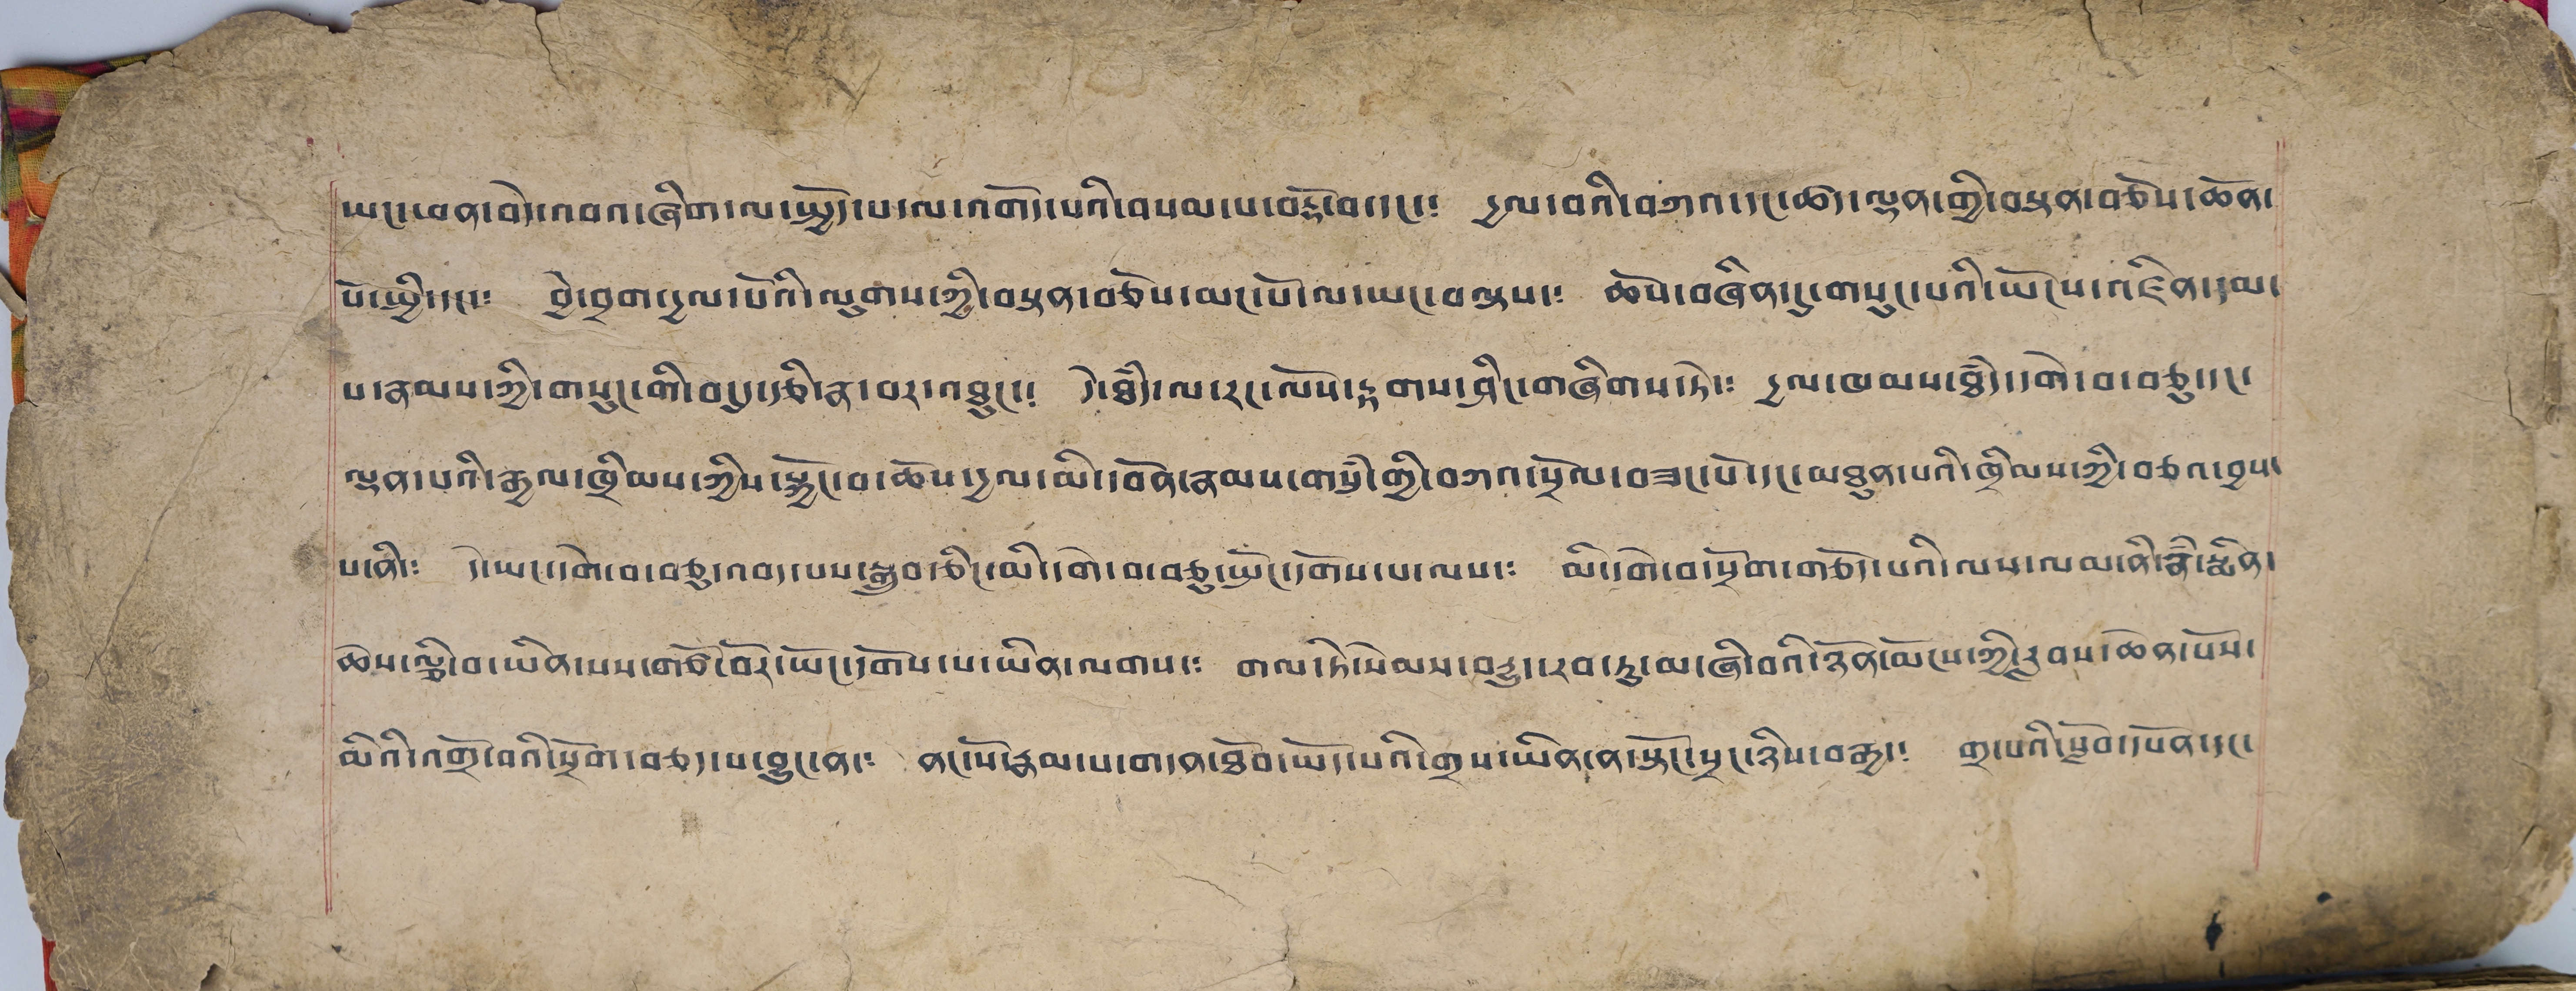ཡང་ཕན་བདེ་འབའ་ཞིག་ལ་སྤྱོད་པ་ལ་འགོད་པའི་བསམ་པ་བརྡོ་བ་དང་༴ དྱལ་བའི་བཀའ་དང་ཚད་ལྡན་གྱི་བསྟན་བཅོས་ཆེན་
པོ་སྤྱི་དང་༴ བྱེ་བྲག་དྱལ་པོའི་ལུགས་ཀྱི་བསྟན་བཅོས་མང་པོ་ལ་ཡང་བལྟས་༴ ཆོས་བཞིན་དུ་གསུང་པའི་ཡོངས་འཛིན་དམ་
པ་རྣམས་ཀྱི་གསུང་གི་བདུད་རྩི་རྣ་བར་འཐུང་༴ དེ་ཐཾད་ལ་རང་ལོས་རྟགས་ཤིང་གཞིགས་ཏེ་༴ དྱལ་ཁམས་ཐཾད་དགེ་བ་བཅུ་དང་
ལྡན་པའི་རྒྱལ་ཁྲིམས་ཀྱིས་སྐྱོང་བ་ཆོས་དྱལ་མི་དབོན་རྣམས་གསུཾ་གྱི་བཀའ་སྲོལ་བཟང་པོ་དང་མཐུན་པའི་ཁྲིམས་ཀྱི་བཅའ་བྱས་
པ་ནི་༴ དེ་ཡང་དགེ་བ་བཅུ་འབད་པས་སྒྲུབ་ཅིང་མི་དགེ་བ་བཅུ་སྤོང་དགོས་པ་ལས་༴ མི་དགེ་བ་སྲོག་གཅོད་པའི་ལས་ལམ་ནི་རྣཾ་སྨིན་
ཆོས་ལྕི་བ་ཡིན་པས་གཙོ་བོར་ཡོང་དགོས་པ་ཡིན་ལགས་༴ གལ་ཏེ་སེམས་བརྒྱུ་རབ་ཏུ་མ་ཞི་བའི་ཉོན་མོངས་ཀྱི་རླབས་ཆེན་པོས་
མིའི་འགྲོ་བའི་སྲོག་བཅད་པ་བྱུང་ནས་༴ ནང་སོ་རྣམ་པ་གདན་ཐོབ་ཡོད་པའི་གྲས་ཡིན་ན་སྟོང་སྲང་ཉིས་བརྒྱད་༴ གྲ་པའི་སློབ་དཔོན་དང་
